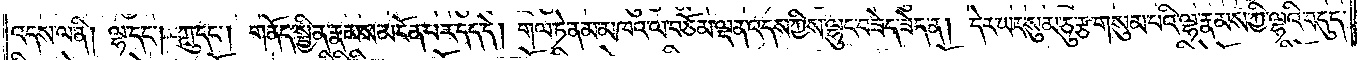འདས་ལ་ནི། ལྷ་དང༌། ཀླུ་དང༌། གནོད་སྦྱིན་རྣམས་མངོན་པར་དད་དེ། གལ་ཏེ་ནམ་མཁའ་ལ་བཅོམ་ལྡན་འདས་ཀྱིས་ལྷུང་བཟེད་ཟེད་ན། དེར་ཡང་སུམ་ཅུ་རྩ་གསུམ་པའི་ལྷ་རྣམས་ཀྱི་ལྷའི་བདུད་
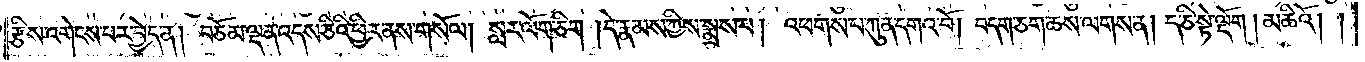རྩིས་འགེངས་པར་བྱེད་ན། བཅོམ་ལྡན་འདས་ཅིའི་ཕྱིར་ནས་གསོལ། སླར་ལོག་ཅིག །དེ་རྣམས་ཀྱིས་སྨྲས་པ། འཕགས་པ་ཀུན་དགའ་བོ། བདག་ཅག་ཆས་ལགས་ན། ད་ཅི་སྟེ་ལྡོག །མཆིའོ། །
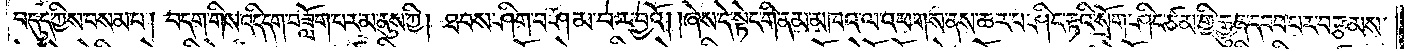བདུད་ཀྱིས་བསམ་པ། བདག་གིས་འདི་དག་བཟློག་པར་མ་ནུས་ཀྱི། ཐབས་ཤིག་བཤམ་པར་བྱའོ། །ཞེས་དེ་སྟེང་གི་ནམ་མཁའ་ལ་འཕགས་ནས་ཆར་པ་ཤིང་རྟའི་སྲོག་ཤིང་ཙམ་གྱི་རྒྱུན་དབབ་པར་བརྩམས་
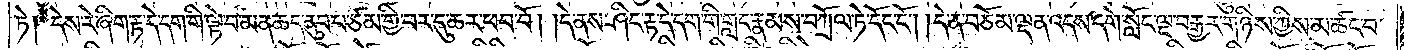ཏེ། དེས་རེ་ཞིག་རྟ་དེ་དག་གི་ལྟེ་བ་མན་ཆད་ནུབ་པ་ཙམ་གྱི་བར་དུ་ཆར་ཕབ་བོ། །དེ་ནས་ཤིང་རྟ་དེ་དག་གི་གླང་རྣམས་བཀྲོལ་ཏེ་དོང་ངོ༌། །དེ་ན་བཅོམ་ལྡན་འདས་དགེ་སློང་ལྔ་བརྒྱར་གཉིས་ཀྱིས་མ་ཚང་བ་
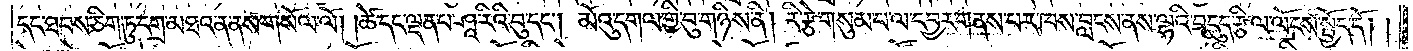དང་ཐབས་ཅིག་ཏུ་དགྲ་མཐའ་ན་ནས་གསོལ་ལོ། །ཚེ་དང་ལྡན་པ་ཤཱ་རིའི་བུ་དང༌། མོའུ་དགལ་གྱི་བུ་གཉིས་ནི། རི་རྩེ་གསུམ་པ་ལ་དབྱར་གནས་པར་ཁས་བླངས་ནས་ལྷའི་བདུད་རྩི་ལ་ལོངས་སྤྱོད་དོ། །
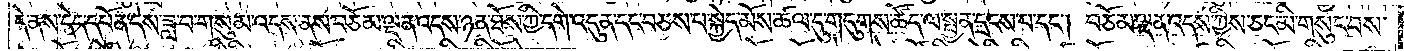དེ་ནས་དེད་དཔོན་དེས་ཟླ་བ་གསུམ་འདས་ནས་བཅོམ་ལྡན་འདས་ཉན་ཐོས་ཀྱི་དགེ་འདུན་དང་བཅས་པ་སྐྱེད་མོས་ཚལ་དུ་གདུགས་ཚོད་ལ་སྤྱན་དྲངས་པ་དང༌། བཅོམ་ལྡན་འདས་ཀྱིས་ཅང་མི་གསུང་བས་
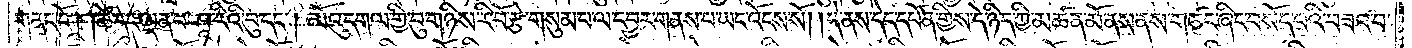གནང་ངོ༌། །ཚེ་དང་ལྡན་པ་ཤཱ་རིའི་བུ་དང༌། མོའུ་དགལ་གྱི་བུ་གཉིས་རི་བོ་རྩེ་གསུམ་པ་ལ་དབྱར་གནས་པ་ཡང་འོངས་སོ། །དེ་ནས་དེད་དཔོན་གྱིས་དེ་ཉིད་ཀྱི་མཚན་མོ་ནས་ནས་གཙང་ཞིང་བསོད་པའི་བཟའ་བ་
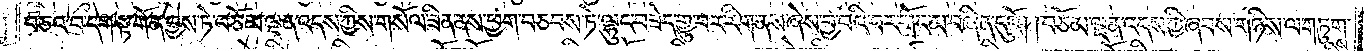དང༌། བཅའ་བ་དག་སྟ་གོན་བྱས་ཏེ་བཅོམ་ལྡན་འདས་ཀྱིས་གསོལ་ཟིན་ནས་ཕྱག་བཅབས་ཏེ་ལྷུང་བཟེད་གྱུ་བར་རིག་ནས་ཞེས་བྱ་བའི་བར་གོང་མ་བཞིན་དུའོ། །བཅོམ་ལྡན་འདས་ཀྱི་ཞབས་གཉིས་ལ་གཏུགས་
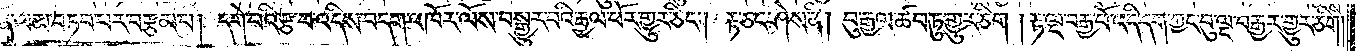ཏེ་སྨོན་ལམ་བཏབ་པར་བརྩམ་པ། དགེ་བའི་རྩ་བ་འདིས་བདག་འཁོར་ལོས་བསྒྱུར་བའི་རྒྱལ་པོར་གྱུར་ཅིང༌། རྟ་ཅང་ཤེས་ནི། བུ་རྒྱལ་ཚབ་ཏུ་གྱུར་ཅིག །རྟ་ལྔ་བརྒྱ་བོ་འདི་དག་ཀྱང་བུ་ལྔ་བརྒྱར་གྱུར་ཅིག །
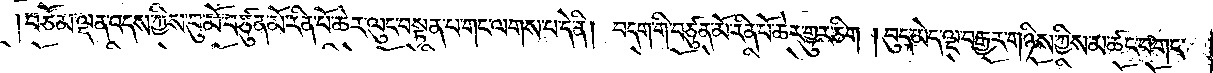།བཅོམ་ལྡན་འདས་ཀྱིས་བུ་མོ་བཙུན་མོ་རིན་པོ་ཆེར་ལུང་བསྟན་པ་གང་ལགས་པ་དེ་ནི། བདག་གི་བཙུན་མོ་རིན་པོ་ཆེར་གྱུར་ཅིག །བུད་མེད་ལྔ་བརྒྱར་གཉིས་ཀྱིས་མ་ཚང་བ་གང་
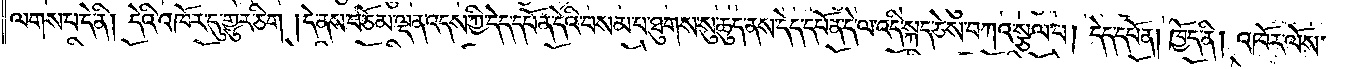ལགས་པ་དེ་ནི། དེའི་འཁོར་དུ་གྱུར་ཅིག །དེ་ནས་བཅོམ་ལྡན་འདས་ཀྱི་དེད་དཔོན་དེའི་བསམ་པ་ཐུགས་སུ་ཆུད་ནས་དེད་དཔོན་དེ་ལ་འདི་སྐད་ཅེས་བཀའ་སྩལ་པ། དེད་དཔོན། ཁྱོད་ནི། འཁོར་ལོས་
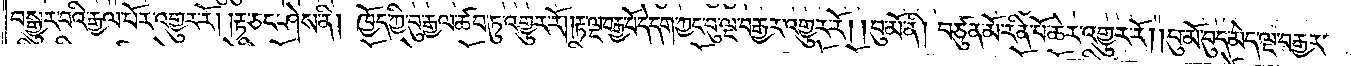བསྒྱུར་བའི་རྒྱལ་པོར་འགྱུར་རོ། །རྟ་ཅང་ཤེས་ནི། ཁྱོད་ཀྱི་བུ་རྒྱལ་ཚབ་ཏུ་འགྱུར་རོ། །རྟ་ལྔ་བརྒྱ་པོ་དེ་དག་ཀྱང་བུ་ལྔ་བརྒྱར་འགྱུར་རོ། །བུ་མོ་ནི། བཙུན་མོ་རིན་པོ་ཆེར་འགྱུར་རོ། །བུ་མོ་བུད་མེད་ལྔ་བརྒྱར་
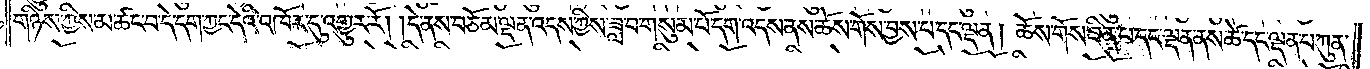གཉིས་ཀྱིས་མ་ཚང་བ་དེ་དག་ཀྱང་དེ་འཁོར་དུ་འགྱུར་རོ། །དེ་ནས་བཅོམ་ལྡན་འདས་ཀྱིས་ཟླ་བ་གསུམ་པོ་དག་འདས་ནས་ཆོས་གོས་བྱས་པ་དང་ལྡན། ཆོས་གོས་ཟིན་པ་དང་ལྡན་ནས་ཚེ་དང་ལྡན་པ་ཀུན་
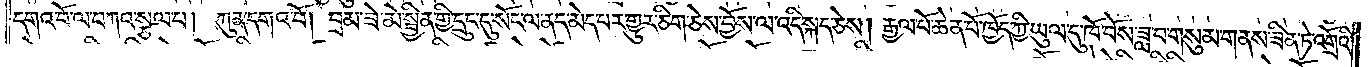དགའ་བོ་ལ་བཀའ་སྩལ་པ། ཀུན་དགའ་བོ། བྲམ་ཟེ་མེ་སྦྱིན་གྱི་དྲུང་དུ་སོང་ལ་ནད་མེད་པར་གྱུར་ཅིག་ཅེས་བྱོས་ལ་འདི་སྐད་ཅེས། རྒྱལ་པོ་ཆེན་པོ་ཁྱོད་ཀྱི་ཡུལ་དུ་ཁོ་བོས་ཟླ་བ་གསུམ་གནས་ཟིན་ཏེ་འགྲོའི་
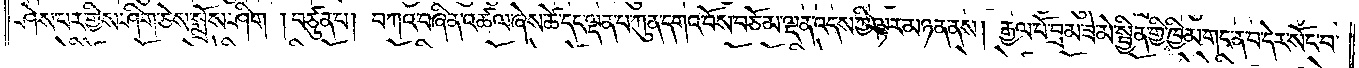ཤེས་པར་གྱིས་ཤིག་ཅེས་སྨྲོས་ཤིག །བཙུན་པ། བཀའ་བཞིན་འཚལ་ཞེས་ཚེ་དང་ལྡན་པ་ཀུན་དགའ་བོས་བཅོམ་ལྡན་འདས་ཀྱི་ལྟར་མཉན་ནས། རྒྱལ་པོ་བྲམ་ཟེ་མེ་སྦྱིན་གྱི་ཁྱིམ་གང་ན་བ་དེར་སོང་བ་
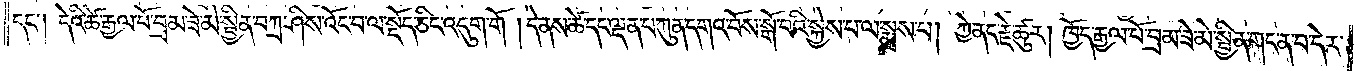དང༌། དེའི་ཚེ་རྒྱལ་པོ་བྲམ་ཟེ་མེ་སྦྱིན་བཀྲ་ཤིས་འོང་བ་ལ་སྡོད་ཅིང་འདུག་གོ །དེ་ནས་ཚེ་དང་ལྡན་པ་ཀུན་དགའ་བོས་སྒོ་བའི་སྐྱེས་པ་ལ་སྨྲས་པ། ཀྱེ་ནང་རྗེ་ཚུར། ཁྱོད་རྒྱལ་པོ་བྲམ་ཟེ་མེ་སྦྱིན་གང་ན་བ་དེར་
